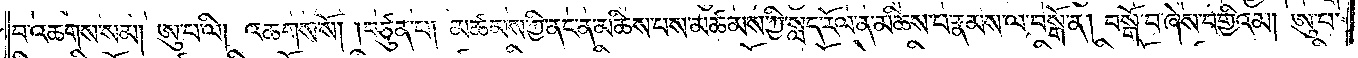བ་འཆགས་སམ། ཨུ་པ་ལི། འཆགས་སོ། །བཙུན་པ། མཚམས་ཀྱི་ནང་ན་མཆིས་པས་མཚམས་ཀྱི་སླད་རོལ་ན་མཆིས་པ་རྣམས་ལ་བསྒོ་ན། བསྒོ་བ་ཞེས་བགྱིའམ། ཨུ་པ་
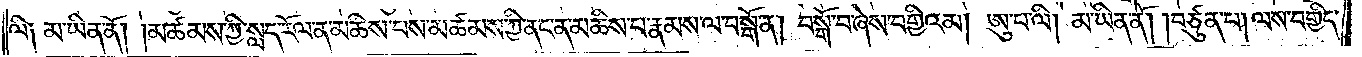ལི༑ མ་ཡིན་ནོ། །མཚམས་ཀྱི་སླད་རོལ་ན་མཆིས་པས་མཚམས་ཀྱི་ནང་ན་མཆིས་པ་རྣམས་ལ་བསྒོ་ན། བསྒོ་བ་ཞེས་བགྱིའམ། ཨུ་པ་ལི། མ་ཡིན་ནོ། །བཙུན་པ། ལས་བགྱིད་
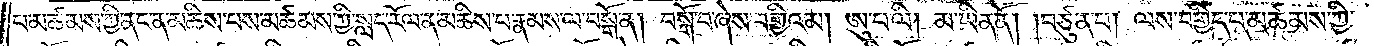པ་མཚམས་ཀྱི་ནང་ན་མཆིས་པས་མཚམས་ཀྱི་སླད་རོལ་ན་མཆིས་པ་རྣམས་ལ་བསྒོ་ན། བསྒོ་བ་ཞེས་བགྱིའམ། ཨུ་པ་ལི། མ་ཡིན་ནོ། །བཙུན་པ། ལས་བགྱིད་པ་མཚམས་ཀྱི་
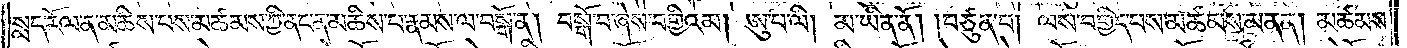སླད་རོལ་ན་མཆིས་པས་མཚམས་ཀྱི་ནང་ན་མཆིས་པ་རྣམས་ལ་བསྒོ་ན། བསྒོ་བ་ཞེས་བགྱིའམ། ཨུ་པ་ལི། མ་ཡིན་ནོ། །བཙུན་པ། ལས་བགྱིད་པས་མཚམས་མནན། མཚམས་
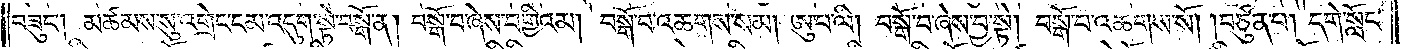བཟུང༌། མཚམས་སུ་འགྲེང་ངམ་འདུག་སྟེ་བསྒོ་ན། བསྒོ་བ་ཞེས་བགྱིའམ། བསྒོ་བ་འཆགས་སམ། ཨུ་པ་ལི། བསྒོ་བ་ཞེས་བྱ་སྟེ། བསྒོ་བ་འཆགས་སོ། །བཙུན་པ། དགེ་སློང་
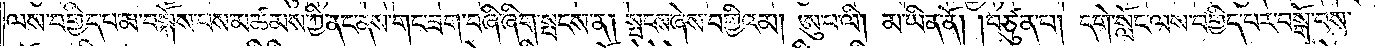ལས་བགྱིད་པ་མ་བསྐོས་པས་མཚམས་ཀྱི་ནང་ནས་གང་ཟག་བཞི་ཞིག་སྤངས་ན། སྤངས་ཞེས་བགྱིའམ། ཨུ་པ་ལི། མ་ཡིན་ནོ། །བཙུན་པ། དགེ་སློང་ལས་བགྱིད་པར་བསྒོ་བས་
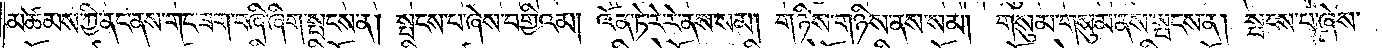མཚམས་ཀྱི་ནང་ནས་གང་ཟག་བཞི་ཞིག་སྤངས་ན། སྤངས་པ་ཞེས་བགྱིའམ། འོན་ཏེ་རེ་རེ་ནས་སམ། གཉིས་གཉིས་ནས་སམ། གསུམ་གསུམ་ནས་སྤངས་ན། སྤངས་པ་ཞེས་
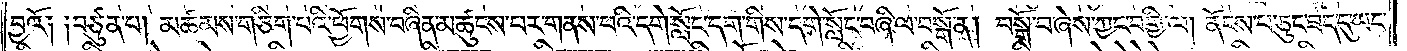བྱའོ༑ ༑བཙུན་པ། མཚམས་གཅིག་པའི་ཕྱོགས་བཞིན་མཚུངས་པར་གནས་པའི་དགེ་སློང་དག་གིས་དགེ་སློང་བཞི་ལ་བསྒོ་ན། བསྒོ་བ་ཞེས་ཀྱང་བགྱི་ལ། ནོངས་པ་ཅུང་ཟད་དུ་ཡང་
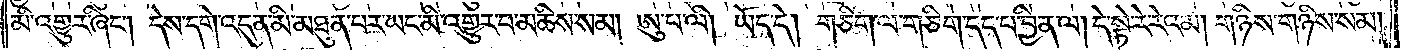མི་འགྱུར་ཞིང༌། དེས་དགེ་འདུན་མི་མཐུན་པར་ཡང་མི་འགྱུར་བ་མཆིས་སམ། ཨུ་པ་ལི། ཡོད་དེ། གཅིག་ལ་གཅིག་དད་པ་བྱིན་ལ། དེ་སྟེ་རེ་རེའམ། གཉིས་གཉིས་སམ།
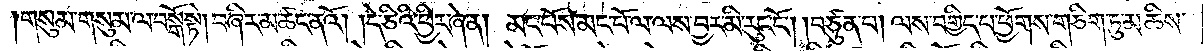།གསུམ་གསུམ་ལ་བསྒོ་སྟེ། བཞིར་མཚང་ནའོ། །དེ་ཅིའི་ཕྱིར་ཞེ་ན། མང་པོས་མང་པོ་ལ་ལས་བྱར་མི་རུང་ངོ༌། །བཙུན་པ། ལས་བགྱིད་པ་ཕྱོགས་གཅིག་ཏུ་མཆིས་
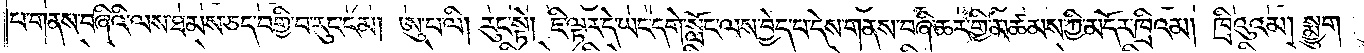པ་གནས་བཞིའི་ལས་ཐམས་ཅད་བགྱི་བ་རུང་ངམ། ཨུ་པ་ལི། རུང་སྟེ། ཇི་ལྟར་དེ་ཡང་དགེ་སློང་ལས་བྱེད་པ་དེས་གནས་བཞི་ཆར་གྱི་མཚམས་ཀྱི་མདོར་ཁྲིའམ། ཁྲིའུའམ། སྨྱུག་
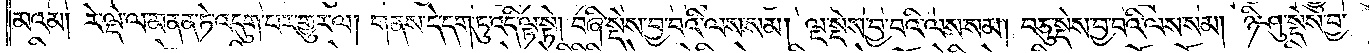མའམ། རེ་ལྡེ་ལ་མནན་ཏེ་འདུག་པར་གྱུར་ལ། གནས་དེ་དག་ཏུ་འདི་ལྟ་སྟེ། བཞི་སྡེས་བྱ་བའི་ལས་སམ། ལྔ་སྡེས་བྱ་བའི་ལས་སམ། བཅུ་སྡེས་བྱ་བའི་ལས་སམ། ཉི་ཤུ་སྡེས་བྱ་
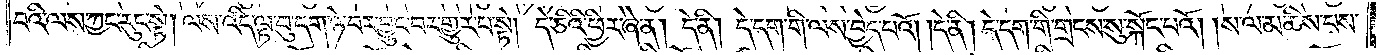བའི་ལས་ཀྱང་རུང་སྟེ། ལས་འདི་ལྟ་བུ་དག་ཉེ་བར་བྱུང་བར་གྱུར་པ་སྟེ། དེ་ཅིའི་ཕྱིར་ཞེ་ན། དེ་ནི། དེ་དག་གི་ལས་བྱེད་པའོ། །དེ་ནི། དེ་དག་གི་གྲངས་སུ་སྐོང་པའོ། །ས་ལ་མཆིས་པས་
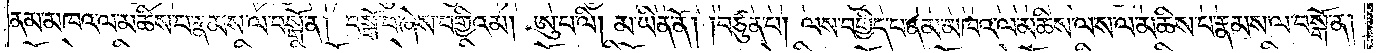ནམ་མཁའ་ལ་མཆིས་པ་རྣམས་ལ་བསྒོ་ན། བསྒོ་བ་ཞེས་བགྱིའམ། ཨུ་པ་ལི། མ་ཡིན་ནོ། །བཙུན་པ། ལས་བགྱིད་པ་ནམ་མཁའ་ལ་མཆིས་ལས་ལ་མཆིས་པ་རྣམས་ལ་བསྒོ་ན།
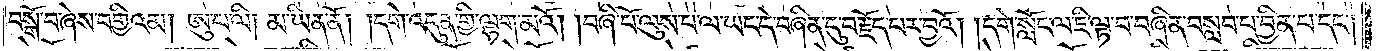བསྒོ་བ་ཞེས་བགྱིའམ། ཨུ་པ་ལི། མ་ཡིན་ནོ། །དགེ་འདུན་གྱི་ལྷག་མའོ། །བཞི་པོ་ལུས་པ་ལ་ཡང་དེ་བཞིན་དུ་བརྗོད་པར་བྱའོ། །དགེ་སློང་ལ་ཇི་ལྟ་བ་བཞིན་བསླབ་པ་བྱིན་པ་དང༌།
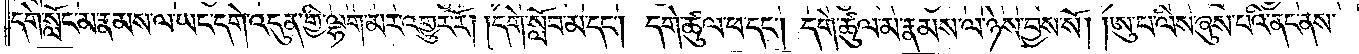དགེ་སློང་མ་རྣམས་ལ་ཡང་དགེ་འདུན་གྱི་ལྷག་མར་འགྱུར་རོ། །དགེ་སློབ་མ་དང༌། དགེ་ཚུལ་ཕ་དང༌། དགེ་ཚུལ་མ་རྣམས་ལ་ཉེས་བྱས་སོ། །ཨུ་པ་ལིས་ཞུས་པའི་ནང་ནས་
